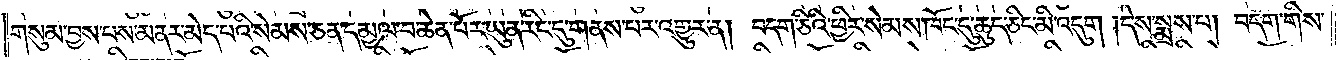གསུམ་བྱས་པས་མནར་མེད་པའི་སེམས་ཅན་དམྱལ་བ་ཆེན་པོར་ཡུན་རིང་དུ་གནས་པར་འགྱུར་ན། བདག་ཅིའི་ཕྱིར་སེམས་ཁོང་དུ་ཆུད་ཅིང་མི་འདུག །དེས་སྨྲས་པ། བདག་གིས་
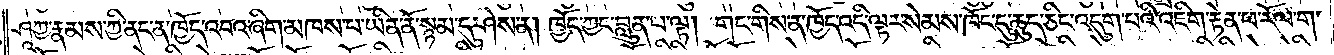ཤཱཀྱ་རྣམས་ཀྱི་ནང་ན་ཁྱོད་འབའ་ཞིག་མཁས་པ་ཡིན་ནོ་སྙམ་དུ་ཤེས་ན། ཁྱོད་ཀྱང་བླུན་པ་ལྟ། གང་གིས་ན་ཁྱོད་འདི་ལྟར་སེམས་ཁོང་དུ་ཆུད་ཅིང་འདུག་པའི་འཇིག་རྟེན་ཕ་རོལ་ག་
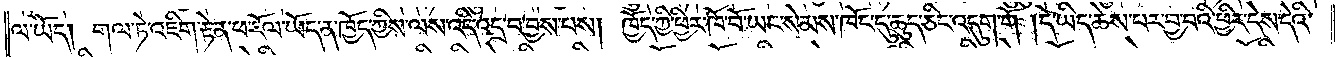ལ་ཡོད། གལ་ཏེ་འཇིག་རྟེན་ཕ་རོལ་ཡོད་ན་ཁྱོད་ཀྱིས་ལས་འདི་འདྲ་བ་བྱས་པས། ཁྱོད་ཀྱི་ཕྱིར་ཁོ་བོ་ཡང་སེམས་ཁོང་དུ་ཆུད་ཅིང་འདུག་གོ །དེ་ཡིད་ཆེས་པར་བྱ་བའི་ཕྱིར་དེས་དེའི་
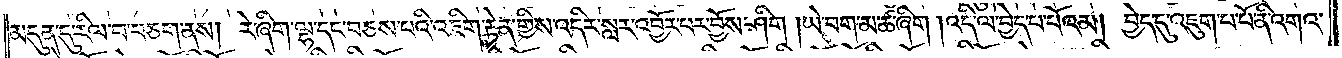མདུན་དུ་རིལ་བ་བཅག་ནས། རེ་ཞིག་ལྷ་དང་བཅས་པའི་འཇིག་རྟེན་གྱིས་འདིར་སླར་འབྱོར་པར་བྱོས་ཤིག །ཡེ་བག་མ་ཚ་ཤིག །འདི་ལ་བྱེད་པ་པོའམ། བྱེད་དུ་འཇུག་པ་པོ་ནི་འགའ་
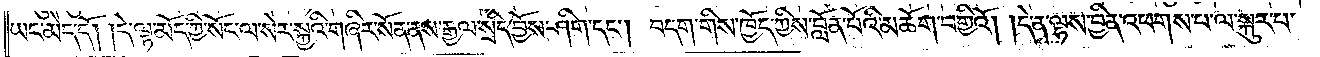ཡང་མེད་དོ། །དེ་ལྟ་མོད་ཀྱི་སོང་ལ་སེར་སྐྱའི་གཞིར་སོན་ནས་རྒྱལ་སྲིད་བྱོས་ཤིག་དང༌། བདག་གིས་ཁྱོད་ཀྱིས་བློན་པོའི་མཆོག་བགྱིའོ། །དེ་ན་ལྷས་བྱིན་འཕགས་པ་ལ་སྐུར་པ་
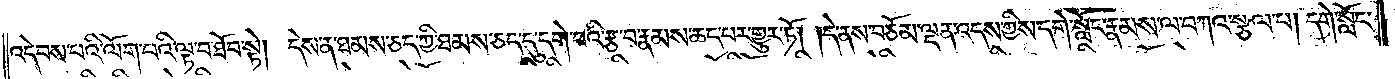འདེབས་པའི་ལོག་པའི་ལྟ་བ་ཐོབ་སྟེ། དེས་ན་ཐམས་ཅད་ཀྱི་ཐམས་ཅད་དུ་དགེ་བའི་རྩ་བ་རྣམས་ཆད་པར་གྱུར་ཏོ། །དེ་ནས་བཅོམ་ལྡན་འདས་ཀྱིས་དགེ་སློང་རྣམས་ལ་བཀའ་སྩལ་པ། དགེ་སློང་
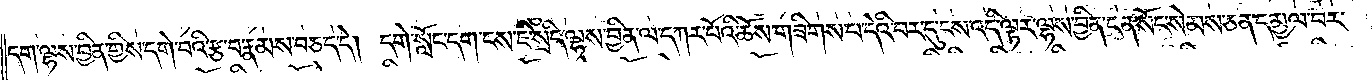དག་ལྷས་བྱིན་གྱིས་དགེ་བའི་རྩ་བ་རྣམས་བཅད་དེ། དགེ་སློང་དག་ངས་ཇི་སྲིད་ལྷས་བྱིན་ལ་དཀར་པོའི་ཆོས་གཟིགས་པ་དེའི་བར་དུ་ངས་འདི་ལྟར་ལྷས་བྱིན་ངན་སོང་སེམས་ཅན་དམྱལ་བར་
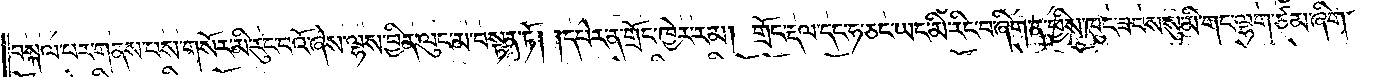བསྐལ་པར་གནས་པས་གསོར་མི་རུང་བའོ་ཞེས་ལྷས་བྱིན་ལུང་མ་བསྟན་ཏོ། །དཔེར་ན་གྲོང་ཁྱེར་རམ། གྲོང་རྡལ་དང་ཧ་ཅང་ཡང་མི་རིང་བ་ཞིག་ན་ཕྱིས་ཁུང་ཟབས་སུ་མི་གང་ལྷག་ཙམ་ཞིག་
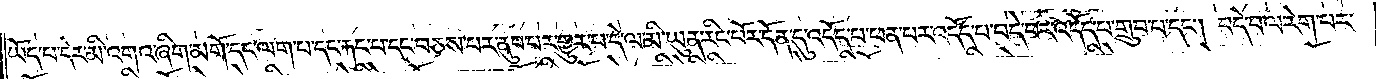ཡོད་པ་དེར་མི་འགའ་ཞིག་མགོ་དང་ལག་པ་དང་རྐང་པ་དང་བཅས་པར་ནུབ་པར་གྱུར་པ་དེ་ལ་མི་ཡུན་རིང་པོར་དོན་དུ་འདོད་པ་ཕན་པར་འདོད་པ་བདེ་བར་འདོད་པ་གྲུབ་པ་དང༌། བདེ་བ་ལ་རེག་པར་
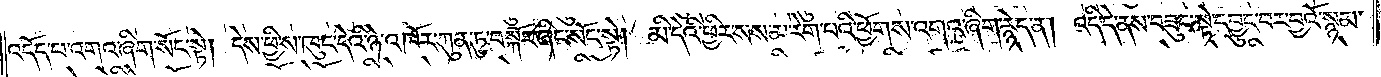འདོད་པ་འགའ་ཞིག་སོང་སྟེ། དེས་ཕྱིས་ཁུང་དེའི་ཉེ་འཁོར་ཀུན་ཏུ་བསྐོར་ཞིང་སོང་སྟེ། མི་དེའི་ཕྱིར་སས་མ་རེག་པའི་ཕྱོགས་འགའ་ཞིག་རྙེད་ན། འདི་དེ་ནས་བཟུང་སྟེ་དབྱུང་བར་བྱའོ་སྙམ་
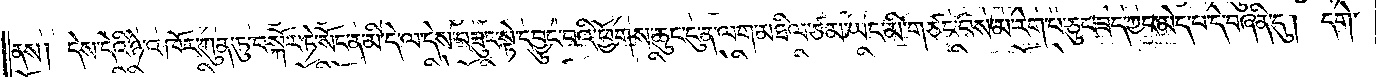ནས། དེས་དེའི་ཉེ་འཁོར་ཀུན་ཏུ་བསྐོར་ཏེ་སོང་ན་མི་དེ་ལ་དེས་བཟུང་སྟེ་དབྱུང་བའི་ཕྱོགས་ཆུང་ངུ་ན་ལག་མཐིལ་ཙམ་ཡང་མི་གཙང་བས་མ་རེག་པ་ཅུང་ཟད་ཀྱང་མེད་པ་དེ་བཞིན་དུ། དགེ་
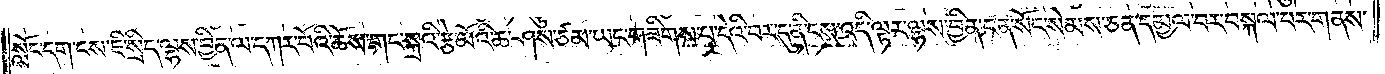སློང་དག་ངས་ཇི་སྲིད་ལྷས་བྱིན་ལ་དཀར་པོའི་ཆོས་གང་སྐྲའི་རྩེ་མོའི་ཆ་ཤས་ཙམ་ཡང་གཟིགས་པ་དེའི་བར་དུ་ནི་ངས་འདི་ལྟར་ལྷས་བྱིན་ངན་སོང་སེམས་ཅན་དམྱལ་བར་བསྐལ་པར་གནས་
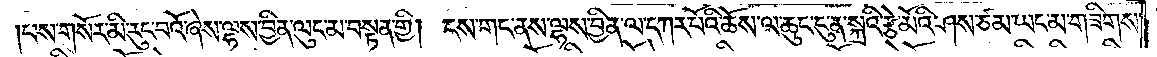།པས་གསོར་མི་རུང་བའོ་ཞེས་ལྷས་བྱིན་ལུང་མ་བསྟན་གྱི། ངས་གང་ནས་ལྷས་བྱིན་ལ་དཀར་པོའི་ཆོས་ལ་ཆུང་ངུ་ན་སྐྲའི་རྩེ་མོའི་ཤས་ཙམ་ཡང་མ་གཟིགས་
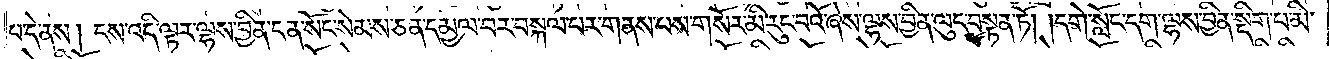པ་དེ་ནས། ངས་འདི་ལྟར་ལྷས་བྱིན་ངན་སོང་སེམས་ཅན་དམྱལ་བར་བསྐལ་པར་གནས་པས་གསོར་མི་རུང་བའོ་ཞེས་ལྷས་བྱིན་ལུང་བསྟན་ཏོ། །དགེ་སློང་དག་ལྷས་བྱིན་སྡིག་པ་མི་
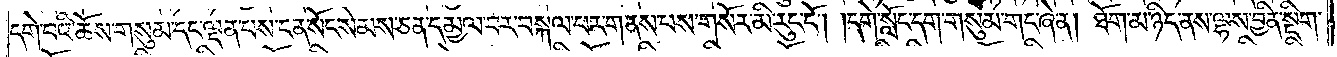དགེ་བའི་ཆོས་གསུམ་དང་ལྡན་པས་ངན་སོང་སེམས་ཅན་དམྱལ་བར་བསྐལ་པར་གནས་པས་གསོར་མི་རུང་ངོ༌། །དགེ་སློང་དག་གསུམ་གང་ཞེ་ན། ཐོག་མ་ཉིད་ནས་ལྷས་བྱིན་སྡིག་
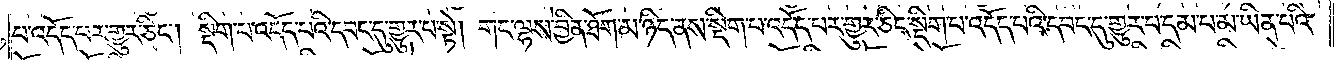པ་འདོད་པར་གྱུར་ཅིང༌། སྡིག་པ་འདོད་པའི་དབང་དུ་གྱུར་པ་སྟེ། གང་ལྷས་བྱིན་ཐོག་མ་ཉིད་ནས་སྡིག་པ་འདོད་པར་གྱུར་ཅིང་སྡིག་པ་འདོད་པའི་དབང་དུ་གྱུར་པ་དམ་པ་མ་ཡིན་པའི་
